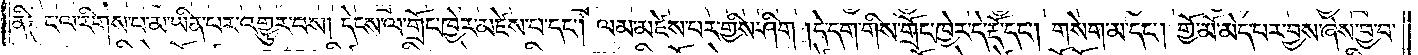ནི༑ ང་ལ་རིགས་པ་མ་ཡིན་པར་འགྱུར་བས། དེངས་ལ་གྲོང་ཁྱེར་མཛེས་པ་དང༌། ལམ་མཛེས་པར་གྱིས་ཤིག །དེ་དག་གིས་གྲོང་ཁྱེར་དེ་རྡོ་དང༌། གསེག་མ་དང༌། གྱོ་མོ་མེད་པར་བྱས་ཞེས་བྱ་བ་
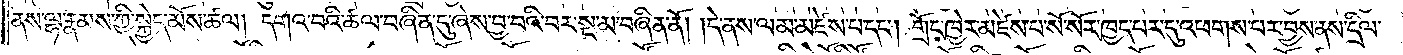ནས་ལྷ་རྣམས་ཀྱི་སྐྱེད་མོས་ཚལ། དགའ་བའི་ཚལ་བཞིན་དུ་ཞེས་བྱ་བའི་བར་སྔ་མ་བཞིན་ནོ། །དེ་ནས་ལམ་མཛེས་པ་དང༌། གྲོང་ཁྱེར་མཛེས་པ་སོ་སོར་ཁྱད་པར་དུ་འཕགས་པར་བྱས་ནས་དྲིལ་
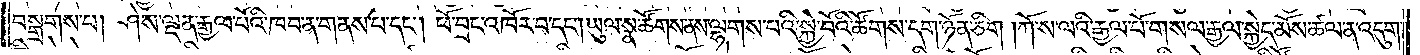བསྒྲགས་པ། ཤེས་ལྡན་རྒྱལ་པོའི་ཁབ་ན་གནས་པ་དང༌། ཕོ་བྲང་འཁོར་བ་དང༌། ཡུལ་སྣ་ཚོགས་ནས་ལྷགས་པའི་སྐྱེ་བོའི་ཚོགས་དག་ཉོན་ཅིག །ཀོ་ས་ལའི་རྒྱལ་པོ་གསལ་རྒྱལ་སྐྱེད་མོས་ཚལ་ན་འདུག་
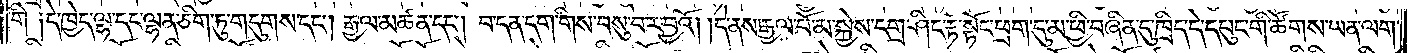གི །དེ་ཁྱེད་ལྷ་དང་ལྷན་ཅིག་ཏུ་གདུགས་དང༌། རྒྱལ་མཚན་དང༌། བ་དན་དག་གིས་བསུ་བར་བྱའོ། །དེ་ནས་རྒྱལ་པོ་མ་སྐྱེས་དགྲ་ཤིང་རྟ་སྟོང་ཕྲག་དུ་མ་ཕྱི་བཞིན་དུ་ཁྲིད་དེ་དཔུང་གི་ཚོགས་ཡན་ལག་
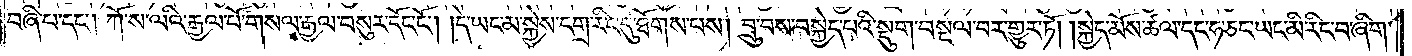བཞི་པ་དང༌། ཀོ་ས་ལའི་རྒྱལ་པོ་གསལ་རྒྱལ་བསུར་དོང་ངོ༌། །དེ་ཡང་མ་སྐྱེས་དགྲ་རིང་དུ་ཐོགས་པས། བྲུ་བས་བསྐྱེད་པའི་སྡུག་བསྔལ་བར་གྱུར་ཏོ། །སྐྱེད་མོས་ཚལ་དང་ཧ་ཅང་ཡང་མི་རིང་བ་ཞིག་
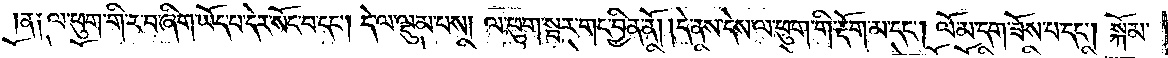ན༑ ལ་ཕུག་གི་ར་བ་ཞིག་ཡོད་པ་དེར་སོང་བ་དང༌། དེ་ལ་ལྡུམ་པས། ལ་ཕུག་སྦར་གང་བྱིན་ནོ། །དེ་ནས་དེས་ལ་ཕུག་གི་རྡོག་མ་དང༌། ལོ་མ་དག་ཟོས་པ་དང༌། སྐོམ་
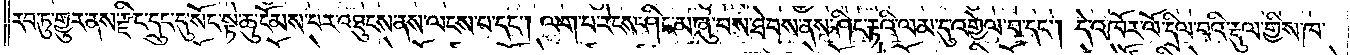རབ་ཏུ་གྱུར་ནས་རྫིང་དྲུང་དུ་སོང་སྟེ་ཆུ་ངོམས་པར་འཐུངས་ནས་ལངས་པ་དང༌། ལག་པ་རེངས་ཤིང་མ་ཞུ་བས་ཐེབས་ནས་ཤིང་རྟའི་ལམ་དུ་འགྱེལ་བ་དང༌། དེ་འཁོར་ལོ་དྲིལ་བའི་རྡུལ་གྱིས་ཁ་
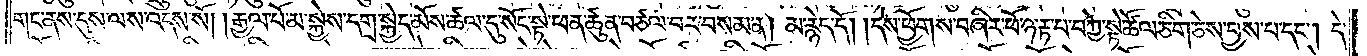གང་ནས་དུས་ལས་འདས་སོ། །རྒྱལ་པོ་མ་སྐྱེས་དགྲ་སྐྱེད་མོས་ཚལ་དུ་སོང་སྟེ་ཕན་ཚུན་བཙལ་བར་བསམ་ན། མ་རྙེད་དོ། །དེས་ཕྱོགས་བཞིར་ཕོ་ཉ་རྟ་པ་བཀྱེ་སྟེ་ཚོལ་ཅིག་ཅེས་བྱས་པ་དང༌། དེ་
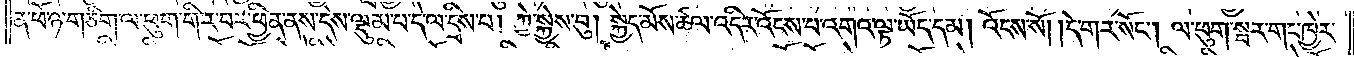ན་ཕོ་ཉ་གཅིག་ལ་ཕུག་གི་ར་བར་ཕྱིན་ནས་དེས་ལྡུམ་པ་དེ་ལ་དྲིས་པ། ཀྱེ་སྐྱེས་བུ། སྐྱེད་མོས་ཚལ་འདིར་འོངས་པ་འགའ་ལྟ་ཡོད་དམ། འོངས་སོ། །དེ་གར་སོང༌། ལ་ཕུག་སྦར་གང་ཁྱེར་
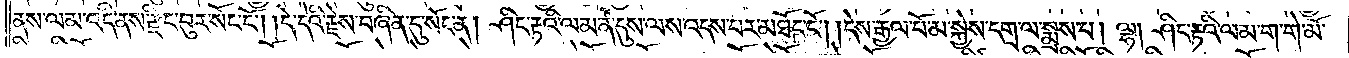ནས་ལམ་འདི་ནས་རྫིང་བུར་སོང་ངོ༌། །དེ་དེའི་རྗེས་བཞིན་དུ་སོང་ན། ཤིང་རྟའི་ལམ་ན་དུས་ལས་འདས་པར་མཐོང་ངོ༌། །དེས་རྒྱལ་པོ་མ་སྐྱེས་དགྲ་ལ་སྨྲས་པ། ལྷ། ཤིང་རྟའི་ལམ་ག་གེ་མོ་
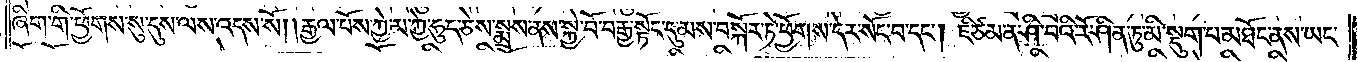ཞིག་གི་ཕྱོགས་སུ་དུས་ལས་འདས་སོ། །རྒྱལ་པོས་ཀྱེ་མ་ཀྱེ་ཧུད་ཅེས་སྨྲས་ནས་སྐྱེ་བོ་བརྒྱ་སྟོང་དུ་མས་བསྐོར་ཏེ་ཕྱོགས་དེར་སོང་བ་དང༌། ཇི་ཙམ་ན་ཤི་བའི་རོ་ཤིན་ཏུ་མི་སྡུག་པ་མཐོང་ནས་ཡང་
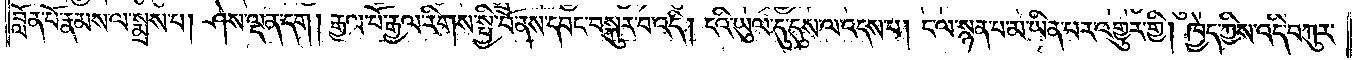བློན་པོ་རྣམས་ལ་སྨྲས་པ། ཤེས་ལྡན་དག །རྒྱལ་པོ་རྒྱལ་རིགས་སྤྱི་བོ་ནས་དབང་བསྐུར་བ་འདི། ངའི་ཡུལ་དུ་དུས་ལ་འདས་པ། ང་ལ་སྙན་པ་མ་ཡིན་པར་འགྱུར་གྱི། ཁྱེད་ཀྱིས་འདི་བཀུར་
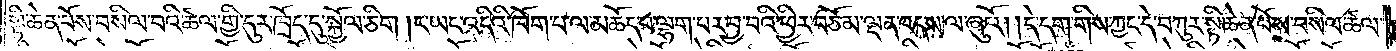སྟི་ཆེན་པོས་བསིལ་བའི་ཚལ་གྱི་དུར་ཁྲོད་དུ་སྐྱོལ་ཅིག །ང་ཡང་འདིའི་ཁོག་པ་ལ་མཆོད་པ་ལྷག་པར་བྱ་བའི་ཕྱིར་བཅོམ་ལྡན་འདས་ལ་ཞུའོ། །དེ་དག་གིས་ཀྱང་དེ་བཀུར་སྟི་ཆེན་པོས་བསིལ་ཚལ་
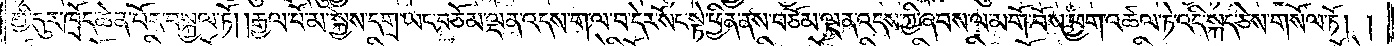གྱི་དུར་ཁྲོད་ཆེན་པོར་བསྐྱལ་ཏོ། །རྒྱལ་པོ་མ་སྐྱེས་དགྲ་ཡང་བཅོམ་ལྡན་འདས་ག་ལ་བདེར་སོང་སྟེ་ཕྱིན་ནས་བཅོམ་ལྡན་འདས་ཀྱི་ཞབས་ལ་མགོ་བོས་ཕྱག་འཚལ་ཏེ་འདི་སྐད་ཅེས་གསོལ་ཏོ། །
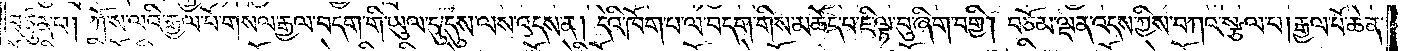བཙུན་པ། ཀོ་ས་ལའི་རྒྱལ་པོ་གསལ་རྒྱལ་བདག་གི་ཡུལ་དུ་དུས་ལས་འདས་ན། དེའི་ཁོག་པ་ལ་བདག་གིས་མཆོད་པ་ཇི་ལྟ་བུ་ཞིག་བགྱི། བཅོམ་ལྡན་འདས་ཀྱིས་བཀའ་སྩལ་པ། རྒྱལ་པོ་ཆེན་
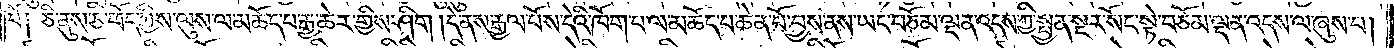པོ། ཅི་ནུས་ཅི་ཕོད་ཀྱིས་ལུས་ལ་མཆོད་པ་རྒྱ་ཆེར་གྱིས་ཤིག །དེ་ནས་རྒྱལ་པོས་དེའི་ཁོག་པ་ལ་མཆོད་པ་ཆེན་པོ་བྱས་ནས་ཡང་བཅོམ་ལྡན་འདས་ཀྱི་སྤྱན་སྔར་སོང་སྟེ་བཅོམ་ལྡན་འདས་ལ་ཞུས་པ།
